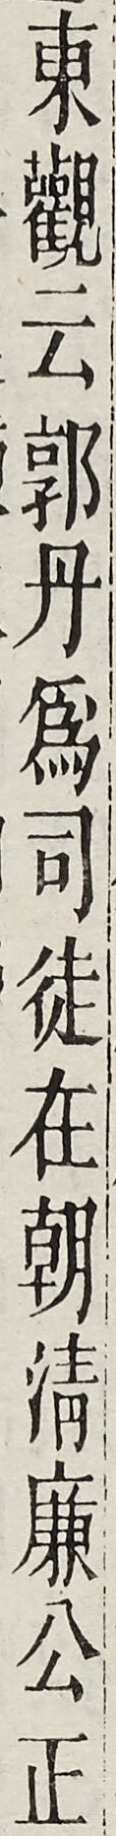東觀雲郭丹為司徒在朝清廉公正
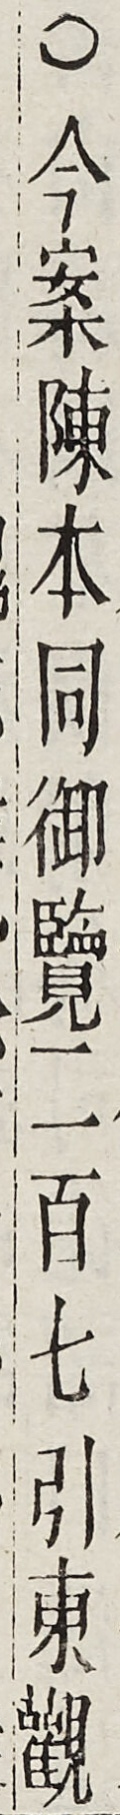○今案陳本同御覽二百七引東觀
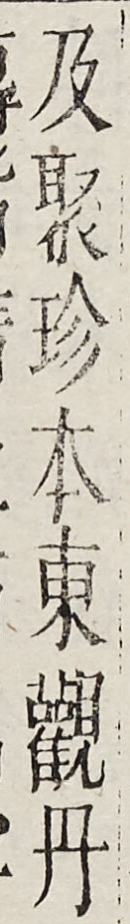及聚珍本東觀丹
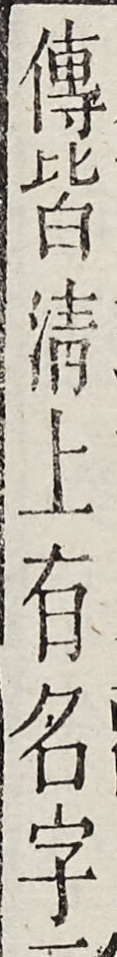傳皆清上有名字
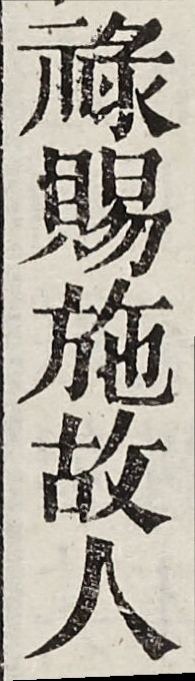祿賜施故人
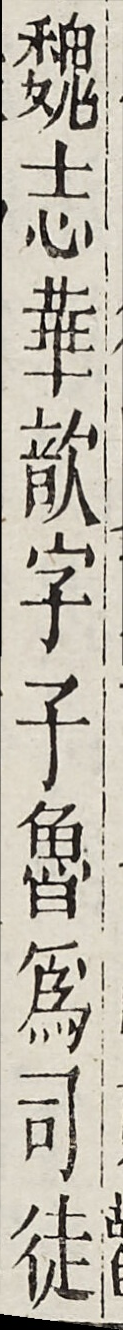魏志華歆字子魯為司徒
